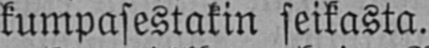kumpasestakin seikasta.
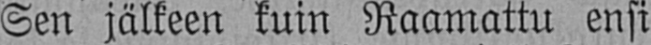Sen jälkeen kuin Raamattu ensi
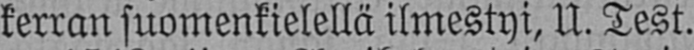kerran suomenkielellä ilmestyi, U. Test.
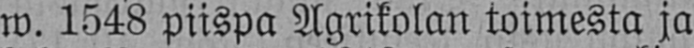w. 1548 piispa Agrikolan toimesta ja
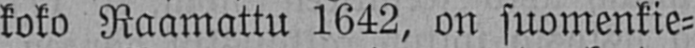koko Raamattu 1642, on suomenkie-
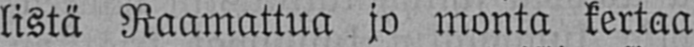listä Raamattua jo monta kertaa
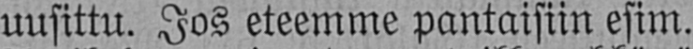uusittu. Jos eteemme pantaisiin esiin.
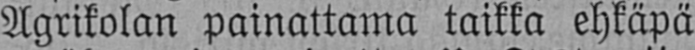Agrikolan painattama taikka ehkäpä
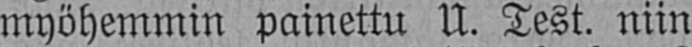myöhemmin painettu U. Test. niin
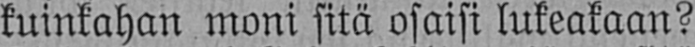kuinkahan moni sitä osaisi lukeakaan?
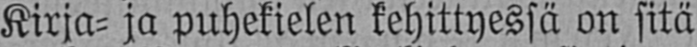Kirja- ja puhekielen kehittyessä on sitä
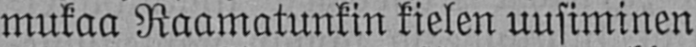mukaa Raamatunkin kielen uusiminen
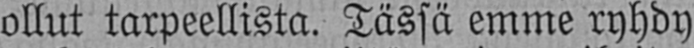ollut tarpeellista. Tässä emme ryhdy
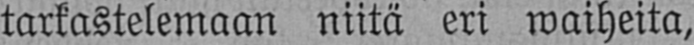tarkastelemaan niitä eri waiheita,
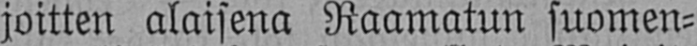joitten alaisena Raamatun suomen-
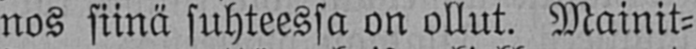nos siinä suhteessa on ollut. Mainit-
